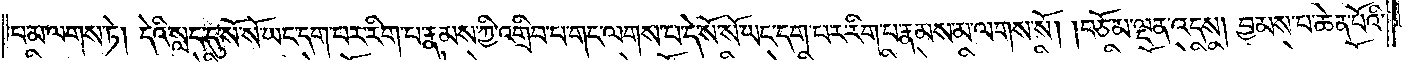པ་མ་ལགས་ཏེ། དེའི་སླད་དུ་སོ་སོ་ཡང་དག་པར་རིག་པ་རྣམས་ཀྱི་འགྲིབ་པ་གང་ལགས་པ་དེ་སོ་སོ་ཡང་དག་པར་རིག་པ་རྣམས་མ་ལགས་སོ། །བཅོམ་ལྡན་འདས། བྱམས་པ་ཆེན་པོའི་
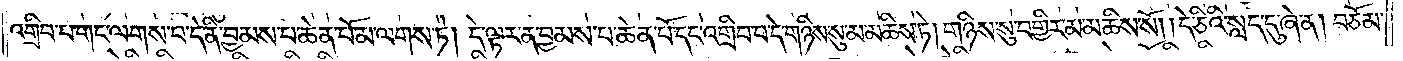འགྲིབ་པ་གང་ལགས་པ་དེ་ནི་བྱམས་པ་ཆེན་པོ་མ་ལགས་ཏེ། དེ་ལྟར་ན་བྱམས་པ་ཆེན་པོ་དང་འགྲིབ་པ་དེ་གཉིས་སུ་མ་མཆིས་ཏེ། གཉིས་སུ་བགྱིར་མ་མཆིས་སོ། །དེ་ཅིའི་སླད་དུ་ཞེ་ན། བཅོམ་
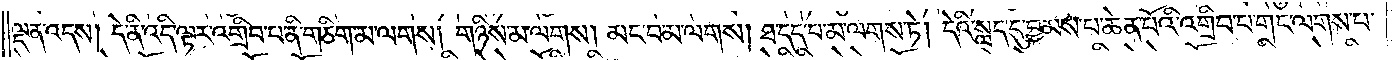ལྡན་འདས། དེ་ནི་འདི་ལྟར་འགྲིབ་པ་ནི་གཅིག་མ་ལགས། གཉིས་མ་ལགས། མང་བ་མ་ལགས། ཐ་དད་པ་མ་ལགས་ཏེ། དེའི་སླད་དུ་བྱམས་པ་ཆེན་པོའི་འགྲིབ་པ་གང་ལགས་པ་
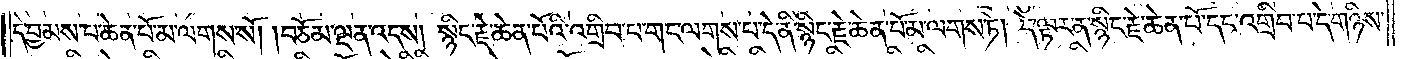དེ་བྱམས་པ་ཆེན་པོ་མ་ལགས་སོ། །བཅོམ་ལྡན་འདས། སྙིང་རྗེ་ཆེན་པོའི་འགྲིབ་པ་གང་ལགས་པ་དེ་ནི་སྙིང་རྗེ་ཆེན་པོ་མ་ལགས་ཏེ། དེ་ལྟར་ན་སྙིང་རྗེ་ཆེན་པོ་དང་འགྲིབ་པ་དེ་གཉིས་
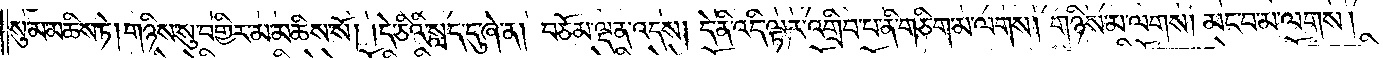སུ་མ་མཆིས་ཏེ། གཉིས་སུ་བགྱིར་མ་མཆིས་སོ། །དེ་ཅིའི་སླད་དུ་ཞེ་ན། བཅོམ་ལྡན་འདས། དེ་ནི་འདི་ལྟར་འགྲིབ་པ་ནི་གཅིག་མ་ལགས། གཉིས་མ་ལགས། མང་བ་མ་ལགས།
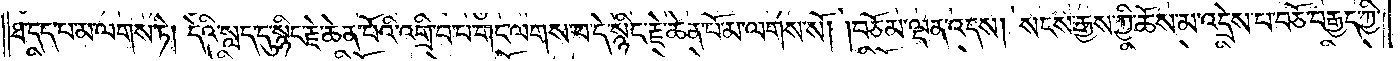ཐ་དད་པ་མ་ལགས་ཏེ། དེའི་སླད་དུ་སྙིང་རྗེ་ཆེན་པོའི་འགྲིབ་པ་གང་ལགས་པ་དེ་སྙིང་རྗེ་ཆེན་པོ་མ་ལགས་སོ། །བཅོམ་ལྡན་འདས། སངས་རྒྱས་ཀྱི་ཆོས་མ་འདྲེས་པ་བཅོ་བརྒྱད་ཀྱི་
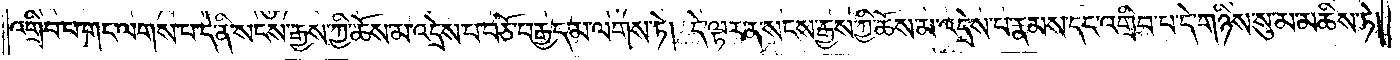འགྲིབ་པ་གང་ལགས་པ་དེ་ནི་སངས་རྒྱས་ཀྱི་ཆོས་མ་འདྲེས་པ་བཅོ་བརྒྱད་མ་ལགས་ཏེ། དེ་ལྟར་ན་སངས་རྒྱས་ཀྱི་ཆོས་མ་འདྲེས་པ་རྣམས་དང་འགྲིབ་པ་དེ་གཉིས་སུ་མ་མཆིས་ཏེ་
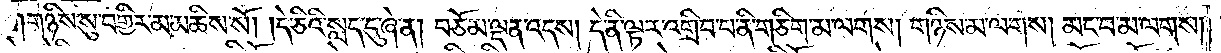གཉིས་སུ་བགྱིར་མ་མཆིས་སོ། །དེ་ཅིའི་སླད་དུ་ཞེ་ན། བཅོམ་ལྡན་འདས་དེ་ནི་འདི་ལྟར་འགྲིབ་པ་ནི་གཅིག་མ་ལགས། གཉིས་མ་ལགས། མང་བ་མ་ལགས།
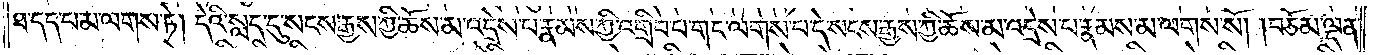ཐ་དད་པ་མ་ལགས་ཏེ། དེའི་སླད་དུ་སངས་རྒྱས་ཀྱི་ཆོས་མ་འདྲེས་པ་རྣམས་ཀྱི་འགྲིབ་པ་གང་ལགས་པ་དེ་སངས་རྒྱས་ཀྱི་ཆོས་མ་འདྲེས་པ་རྣམས་མ་ལགས་སོ། །བཅོམ་ལྡན་
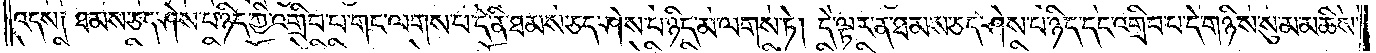འདས། ཐམས་ཅད་ཤེས་པ་ཉིད་ཀྱི་འགྲིབ་པ་གང་ལགས་པ་དེ་ནི་ཐམས་ཅད་ཤེས་པ་ཉིད་མ་ལགས་ཏེ། དེ་ལྟར་ན་ཐམས་ཅད་ཤེས་པ་ཉིད་དང་འགྲིབ་པ་དེ་གཉིས་སུ་མ་མཆིས་
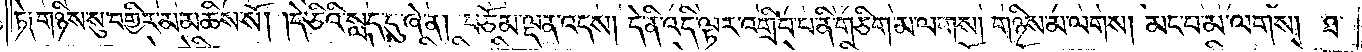ཏེ༑ གཉིས་སུ་བགྱིར་མ་མཆིས་སོ། །དེ་ཅིའི་སླད་དུ་ཞེ་ན། བཅོམ་ལྡན་འདས། དེ་ནི་འདི་ལྟར་འགྲིབ་པ་ནི་གཅིག་མ་ལགས། གཉིས་མ་ལགས། མང་བ་མ་ལགས། ཐ་
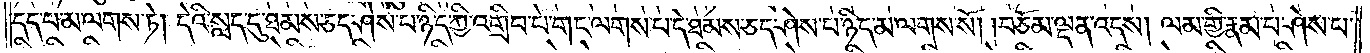དད་པ་མ་ལགས་ཏེ། དེའི་སླད་དུ་ཐམས་ཅད་ཤེས་པ་ཉིད་ཀྱི་འགྲིབ་པ་གང་ལགས་པ་དེ་ཐམས་ཅད་ཤེས་པ་ཉིད་མ་ལགས་སོ། །བཅོམ་ལྡན་འདས། ལམ་གྱི་རྣམ་པ་ཤེས་པ་
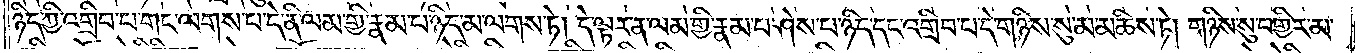ཉིད་ཀྱི་འགྲིབ་པ་གང་ལགས་པ་དེ་ནི་ལམ་གྱི་རྣམ་པ་ཉིད་མ་ལགས་ཏེ། དེ་ལྟར་ན་ལམ་གྱི་རྣམ་པ་ཤེས་པ་ཉིད་དང་འགྲིབ་པ་དེ་གཉིས་སུ་མ་མཆིས་ཏེ། གཉིས་སུ་བགྱིར་མ་
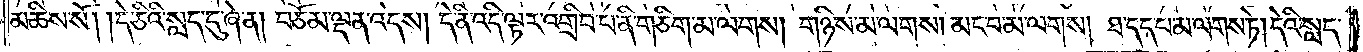མཆིས་སོ། །དེ་ཅིའི་སླད་དུ་ཞེ་ན། བཅོམ་ལྡན་འདས། དེ་ནི་འདི་ལྟར་འགྲིབ་པ་ནི་གཅིག་མ་ལགས། གཉིས་མ་ལགས། མང་བ་མ་ལགས། ཐ་དད་པ་མ་ལགས་ཏེ། དེའི་སླད་
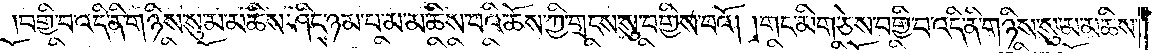བགྱི་བ་འདི་ནི་གཉིས་སུ་མ་མཆིས་ཤིང་ཉམ་པ་མ་མཆིས་པའི་ཆོས་ཀྱི་གྲངས་སུ་བགྱིས་པའོ། །གང་མིག་ཅེས་བགྱི་བ་འདི་ནི་གཉིས་སུ་མ་མཆིས་
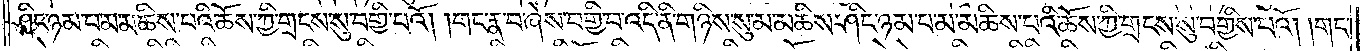ཤིང་ཉམ་པ་མ་མཆིས་པའི་ཆོས་ཀྱི་གྲངས་སུ་བགྱི་པའོ། །གང་རྣ་བ་ཞེས་བགྱི་བ་འདི་ནི་གཉིས་སུ་མ་མཆིས་ཤིང་ཉམ་པ་མ་མཆིས་པའི་ཆོས་ཀྱི་གྲངས་སུ་བགྱིས་པའོ། །གང་
